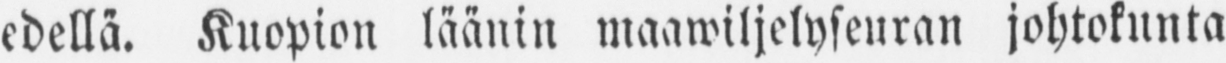edellä. Kuopion läänin maawiljelyseuran johtokunta
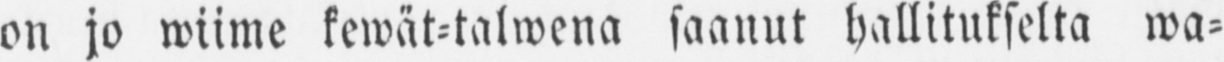on jo wiime kewät-talwena saanut hallitukselta wa-
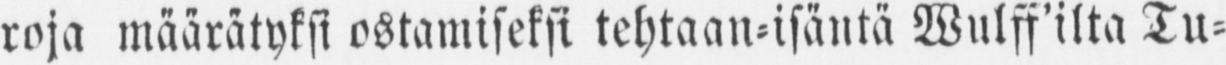roja määrätyksi ostamiseksi tehtaan-isäntä Wulff'ilta Tu-
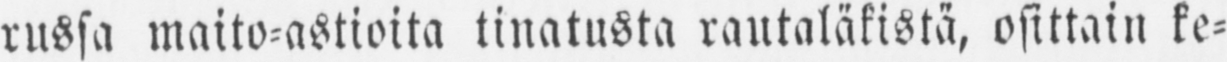russa maito-astioita tinatusta rautaläkistä, osittain ke-
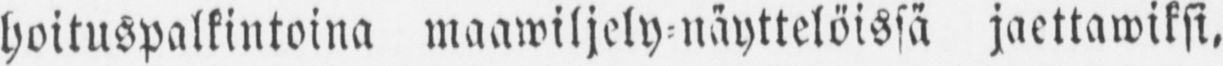hoituspalkintoina maawiljely-näyttelöissä jaettawiksi,
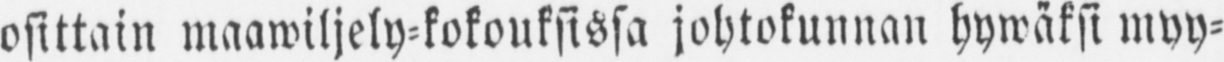osittain maawiljely-kokouksissa johtokunnan hywäksi mvy-
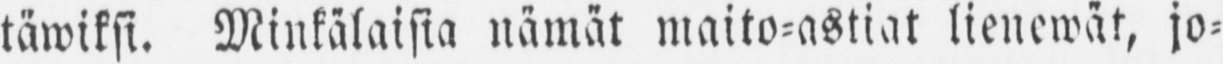tawiksi. Minkälaisia nämät maito-astiat lienewät, jo-
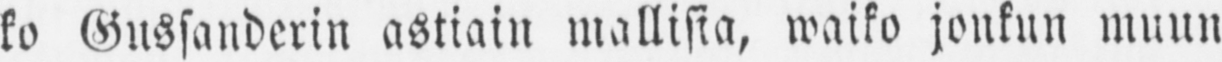ko Gussanderin astiain mallisia, waiko jonkun muun
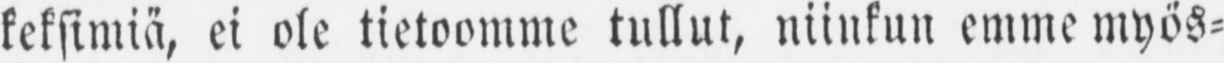keksimiä, ei ole tietoomme tullut, niinkun emme myös-
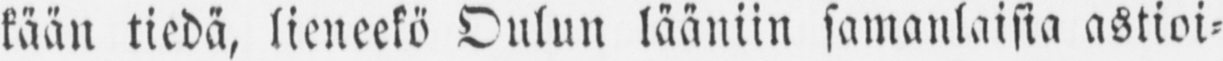kään tiedä, lieneekö Oulun lääniin samanlaisia astioi-
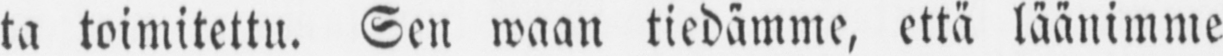ta toimitettu. Sen waan tiedämme, että läänimme
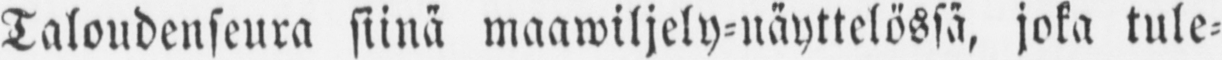Taloudenseura siinä maawiljely-näyttelössä, joka tule-
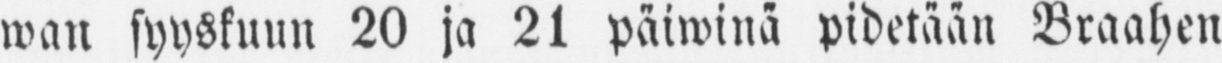wan syyskuun 20 ja 21 päiwinä pidetään Braahen
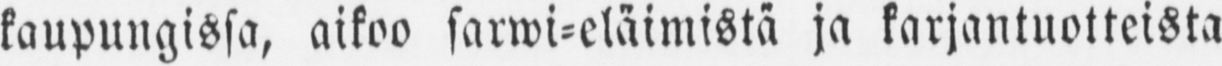kaupungissa, aikoo särwi-eläimistä ja karjantuotteista
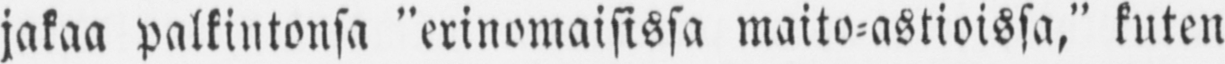jakaa palkintonsa "erinomaisissa maito-astioissa," kuten
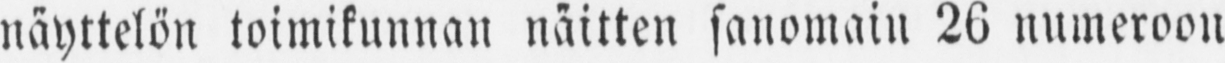näyttelön toimikunnan näitten sanomain 26 numeroon
